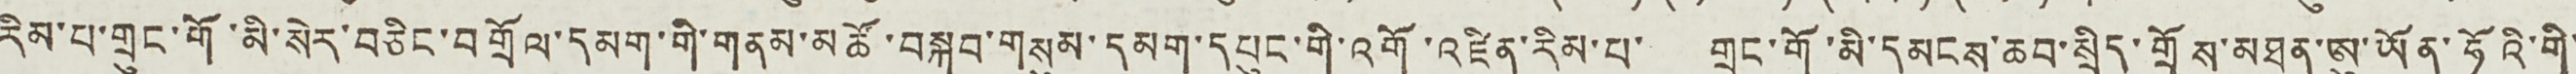རིམ་པ་གྲུང་གོ་མི་སེར་བཅིང་བགྲོལ་དམག་གི་གནམ་མཚོ་བསྐབ་གསུམ་དམག་དཔུང་གི་འགོ་འཛིན་རིམ་པ་ གྲུང་གོ་མི་དམངས་ཆབ་སྲིད་གྲོས་མཐུན་ཨུ་ཡོན་ཧོའི་གི་
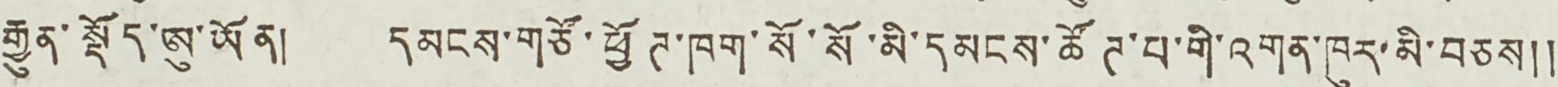རྒྱུན་སྡོད་ཨུ་ཡོན། དམངས་གཙོ་ཕྱོཊ་ཁག་སོ་སོ་མི་དམངས་ཚོཊ་པ་གི་འགན་ཁུར་མི་བཅས༎
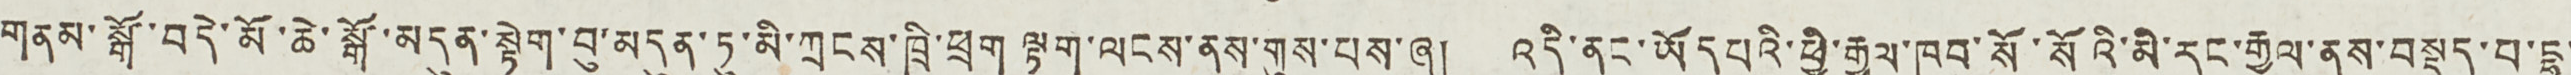གནམ་སྒོ་བདེ་མོ་ཆེ་སྒོ་མདུན་སྟེག་བུ་མདུན་ཏུ་མི་ཀྲངས་ཁྲི་ཕྲག ལྟག་ལངས་ནས་གུས་པས་ཞུ། འདི་ནང་ཡོད པའི་ཕྱི་རྒྱལ་ཁབ་སོ་སོའི་མི་རང་རྒྱལ་ནས་བསྡད་པ་དྷ་
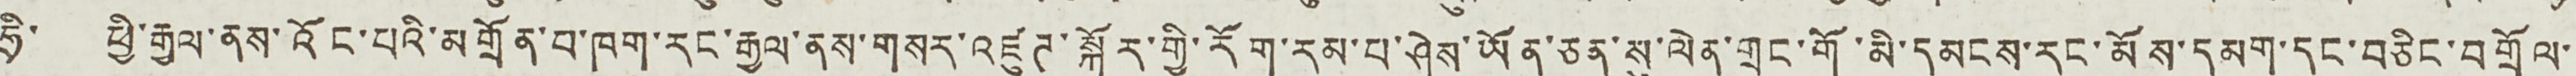ཧྲི་ ཕྱི་རྒྱལ་ནས་འོང་པའི་མགྲོན་བ་ཁག་རང་རྒྱལ་ནས་གསར་འཛུཊ་སྐོར་གྱི་རོག་རམ་པ་ཤེས་ཡོན་ཅན་སུ་ལེན་གྲུང་གོ་མི་དམངས་རང་མོས་དམག་དང་བཅིང་བགྲོལ་་
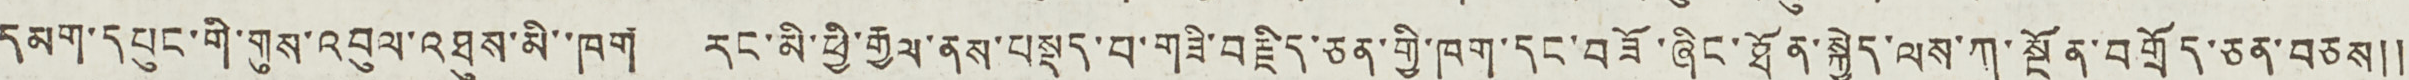དམག་དཔུང་གི་གུས་འབུལ་འཐུས་མི་་ཁག རང་མི་ཕྱི་རྒྱལ་ནས་བསྡད་བ་གཟི་བརྗིད་ཅན་གྱི་ཁག་དང་བཟོ་ཞིང་ཐོན་སྐྱེད་ལས་ཀ་སྔོན་བགྲོད་ཅན་བཅས༎
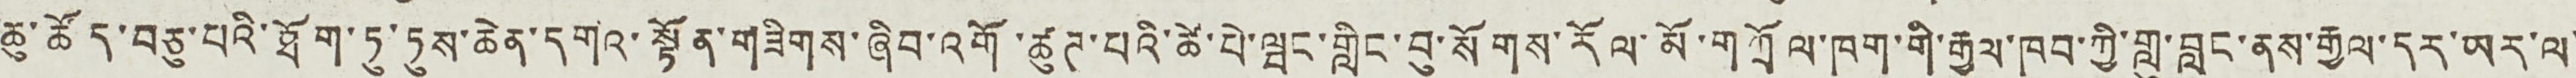ཆུ་ཚོད་བཅུ་པའི་ཐོག་ཏུ་ཏུས་ཆེན་དགའ་སྟོན་གཟིགས་ཞིབ་འགོ་ཚུཊ་པའི་ཚེ་པེ་ལྦང་གླིང་བུ་སོགས་རོལ་མོ་གཀྲོལ་ཁག་གི་རྒྱལ་ཁབ་ཀྱི་གླུ་བླང་ནས་རྒྱལ་དར་ཡར་ལ་
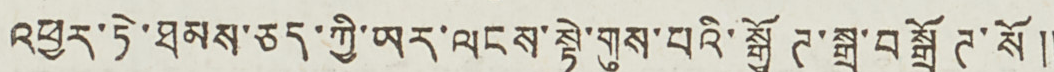འཕྱར་ཏེ་ཐམས་ཅད་ཀྱི་ཡར་ལངས་སྟེ་གུས་པའི་སྒྱོཊ་སྒྲ་བསྒྲོཊ་སོ༎
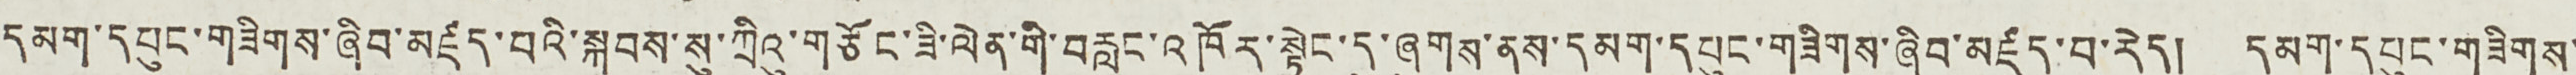དམག་དཔུང་གཟིགས་ཞིབ་མཛད་པའི་སྐབས་སུ་ཀྲིའུ་གཅོང་ཟི་ལེན་གི་བརླང་འཁོར་སྟེང་དུ་ཞུགས་ནས་དམག་དཔུང་གཟིགས་ཞིབ་མཛད་བ་རེད། དམག་དཔུང་གཟིགས་
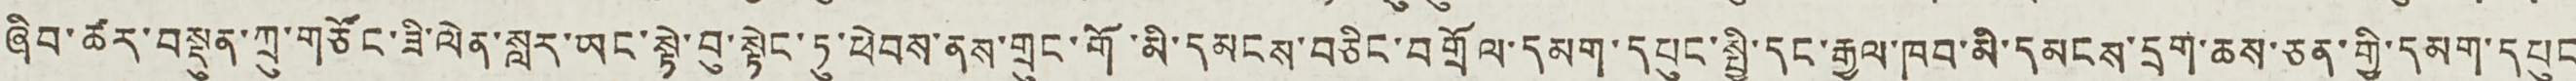ཞིབ་ཚར་བསྡུན་ཀྲུ་གཙོང་ཟི་ལེན་སླར་ཡང་སྟེ་བུ་སྟེང་ཏུ་ཕེབས་ནས་གྲུང་གོ་མི་དམངས་བཅིང་བགྲོལ་དམག་དཔུང་སྤྱི་དང་རྒྱལ་ཁབ་མི་དམངས་དྲག་ཆས་ཅན་གྱི་དམག་དཔུང
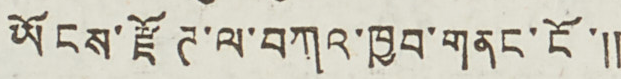ཡོངས་རྫོཊ་ལ་བཀའ་ཁྱབ་གནང་ངོ་༎
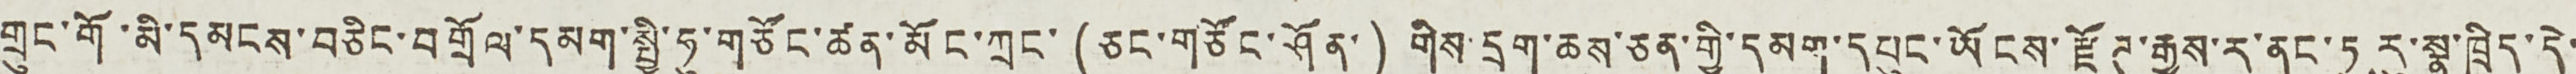གྲུང་གོ་མི་དམངས་བཅིང་བགྲོལ་དམག་སྤྱི་ཧུ་གཙོང་ཚན་མོང་ཀྲང་ (ཅང་གཙོང་ཤོན་) གིས དྲག་ཆས་ཅན་གྱི་དམག་དཔུང་ཡོངས་རྫོཊ་རྒྱས་ར་ནང་ཏུ རུ་སྣ་ཁྲིད་དེ་
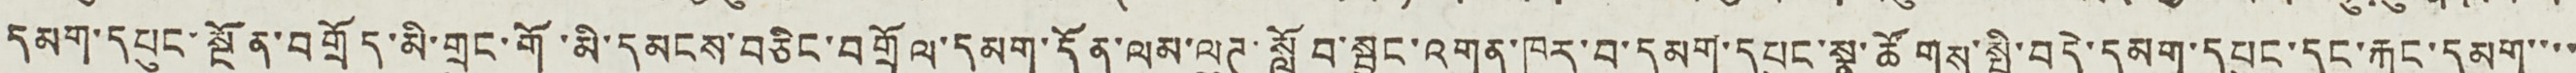དམག་དཔུང་སྔོན་བགྲོད་མི་གྲུང་གོ་མི་དམངས་བཅིང་བགྲོལ་དམག་དོན་ལམ་ལུཊ་སློབ་སྦྱང་འགན་ཁུར་བ་དམག་དཔུང་སྣ་ཚོགས་སྤྱི་བདེ་དམག་དཔུང་དང་རྐང་དམག་་་་
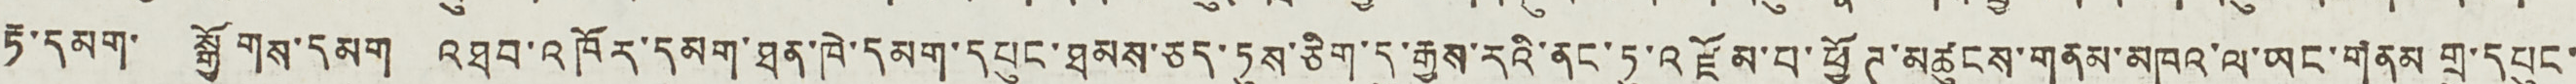རྟ་དམག་ སྒྱོགས་དམག འཐབ་འཁོར་དམག་ཐན་ཁེ་དམག་དཔུང་ཐམས་ཅད་ཏུས་ཅིག་དུ་རྒྱས་རའི་ནང་ཏུ་འཛོམ་པ་ཕྱོཊ་མཚུངས་གནས་མཁའ་ལ་ཡང་གནམ་གྲུ་དཔུང་
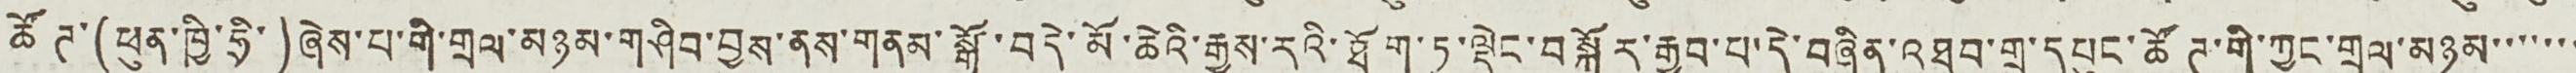ཚོཊ་(ཕུན་ཁྱི་ཧྲི་)ཞེས་པ་གི་གྲལ་མཉམ་གཤིབ་བྱས་ནས་གནམ་སྒོ་བདེ་མོ་ཆེའི་རྒྱས་རའི་ཐོག་ཏུ་ལྡེང་བསྐོར་རྒྱབ་པ་དེ་བཞིན་འཐབ་གྲུ་དཔུང་ཚོཊ་གི་ཀྱང་གྲལ་མཉམ་་་་་་་
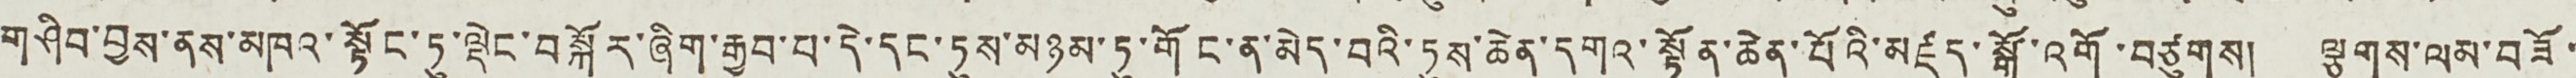གཤིབ་བྱས་ནས་མཁའ་སྟོང་ཏུ་ལྡེང་བསྐོར་ཞིག་རྒྱབ་པ་དེ་དང་ཏུས་མཉམ་ཏུ་གོང་ན་མེད་བའི་ཏུས་ཆེན་དགའ་སྟོན་ཆེན་པོའི་མཛད་སྒོ་འགོ་བཙུགས། ལྕགས་ལམ་བཟོ་
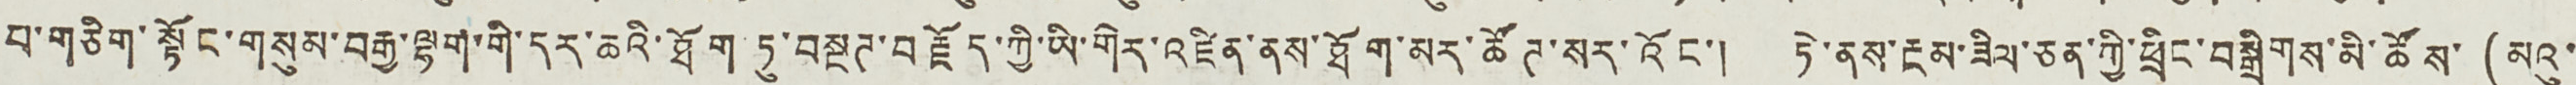བ་གཅིག་སྟོང་གསུམ་བརྒྱ་ལྷག་གི་དར་ཆའི་ཐོག ཏུ་བསྔཊ་བརྗོད་ཀྱི་ཡི་གེར་འཛིན་ནས་ཐོག་མར་ཚོཊ་སར་འོང་། ཏེ་ནས་རྔམ་ཟིལ་ཅན་ཀྱི་ཕྲིང་བསྒྲིགས་མི་ཚོས་ (མའུ་
